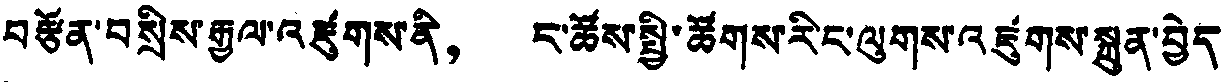བརྩོན་བསྲིས་རྒྱལ་འཛུགས་ནི， ང་ཚོས་སྤྱི་ཚོགས་རིང་ལུགས་འཛུགས་སྐྲུན་བྱེད་
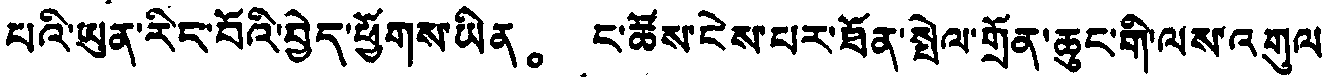པའི་ཡུན་རིང་བོའི་བྱེད་ཕྱོགས་ཡིན。 ང་ཚོས་ངེས་པར་ཐོན་སྤེལ་གྲོན་ཆུང་གི་ལས་འགུལ
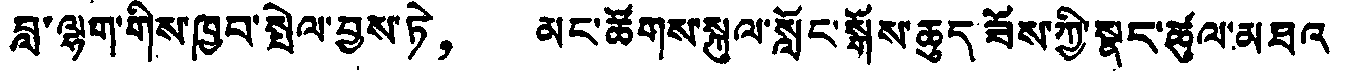བླ་ལྷག་གིས་ཁྱབ་སྤེལ་བྱས་ཏེ， མང་ཚོགས་སྐུལ་སློང་སྒོས་ཆུད་ཟོས་ཀྱི་སྣང་ཚུལ་མཐའ་
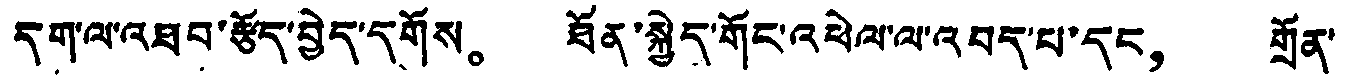དག་ལ་འཐབ་རྩོད་བྱེད་དགོས。 ཐོན་སྐྱེད་གོང་འཕེལ་ལ་འབད་པ་དང， གྲོན་
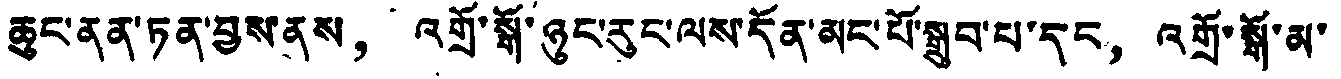ཆུང་ནན་ཏན་བྱས་ནས， འགྲོ་སྒོ་ཉུང་རུང་ལས་དོན་མང་པོ་སྒྲུབ་པ་དང， འགྲོ་སྒོ་མ་
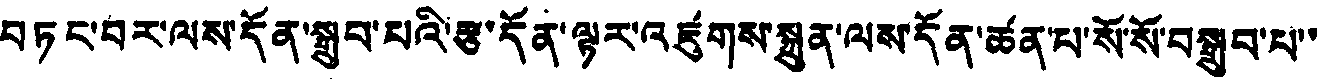བཏང་བར་ལས་དོན་སྒྲུབ་པའི་རྩ་དོན་ལྟར་འཛུགས་སྐྲུན་ལས་དོན་ཚན་པ་སོ་སོ་བསྒྲུབ་པ་་
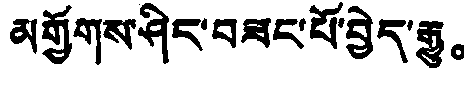མགྱོགས་ཤིང་བཟང་པོ་བྱེད་རྒྱུ。
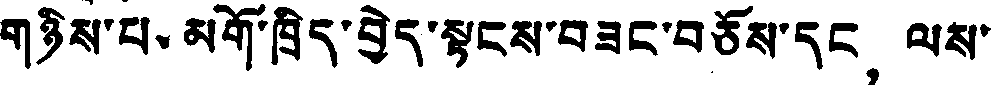གཉིས་པ、 མགོ་ཁྲིད་བྱེད་སྟངས་བཟང་བཅོས་དང， ལས་
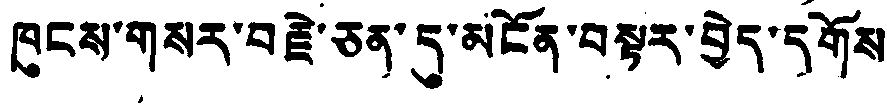ཁུངས་གསར་བརྗེ་ཅན་དུ་མངོན་བསྟར་བྱེད་དགོས
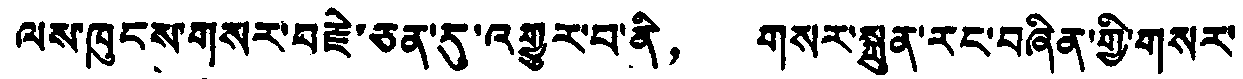ལས་ཁུངས་གསར་བརྗེ་ཅན་དུ་འགྱུར་བ་ནི， གསར་སྐྲུན་རང་བཞིན་གྱི་གསར་
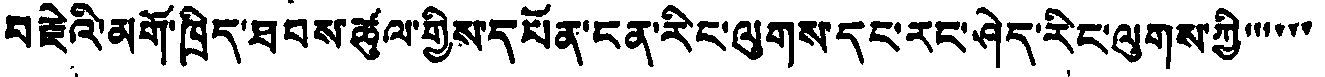བརྗེའི་མགོ་ཁྲིད་ཐབས་ཚུལ་གྱིས་དཔོན་ངན་རིང་ལུགས་དང་རང་ཤེད་རིང་ལུགས་ཀྱི་་་་་་
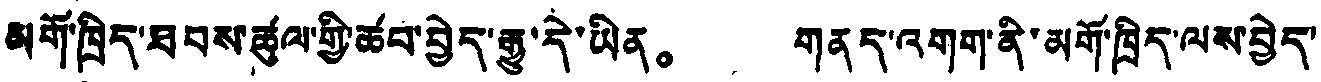མགོ་ཁྲིད་ཐབས་ཚུལ་གྱི་ཚབ་བྱེད་རྒྱུ་དེ་ཡིན。 གནད་འགག་ནི་མགོ་ཁྲིད་ལས་བྱེད་
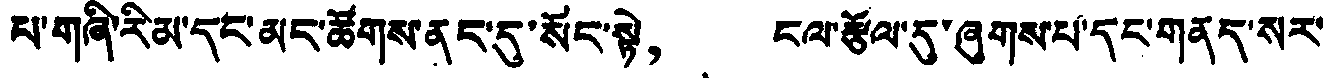པ་གཞི་རིམ་དང་མང་ཚོགས་ནང་དུ་སོང་སྟེ， ངལ་རྩོལ་དུ་ཞུགས་པ་དང་གནད་སར་
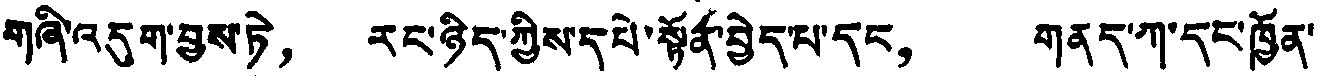གཞི་འདུག་བྱས་ཏེ， རང་ཉིད་ཀྱིས་དཔེ་སྟོན་བྱེད་པ་དང， གནད་ཀ་དང་ཁྱོན་
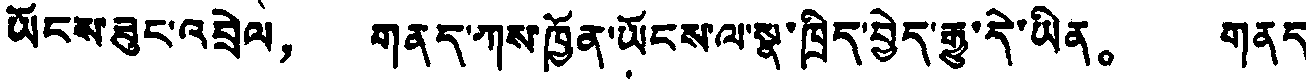ཡོངས་ཟུང་འབྲེལ， གནད་ཀས་ཁྱོན་ཡོངས་ལ་སྣ་ཁྲིད་བྱེད་རྒྱུ་དེ་ཡིན。 གནད
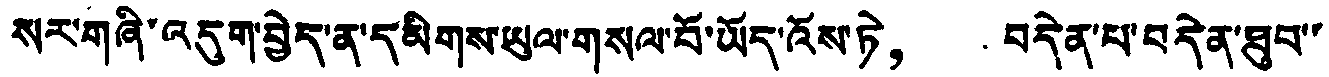སར་གཞི་འདུག་བྱེད་ན་དམིགས་ཡུལ་གསལ་བོ་ཡོད་འོས་ཏེ， བདེན་པ་བདེན་ཐུབ་་
